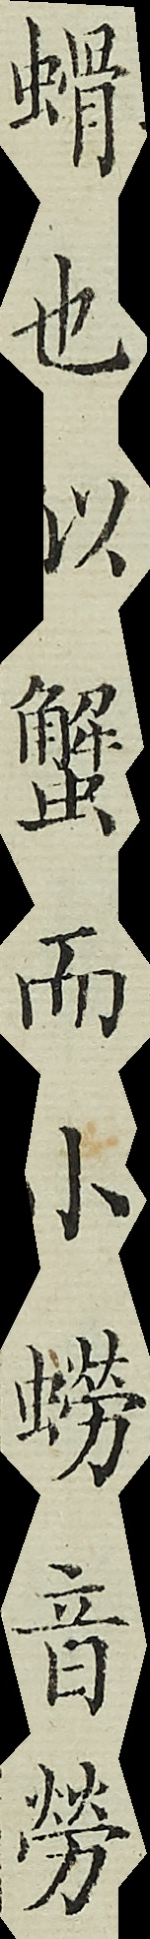螖也似蟹而小蟧音勞
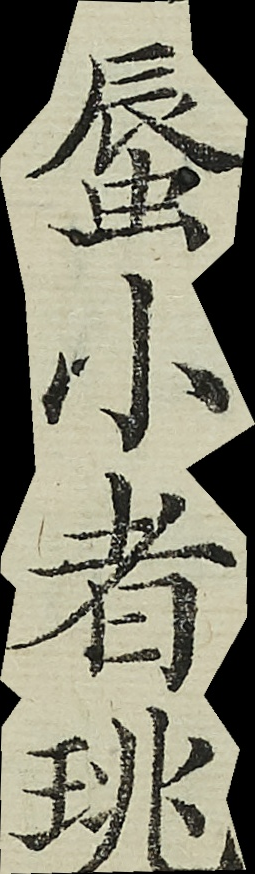蜃小者珧
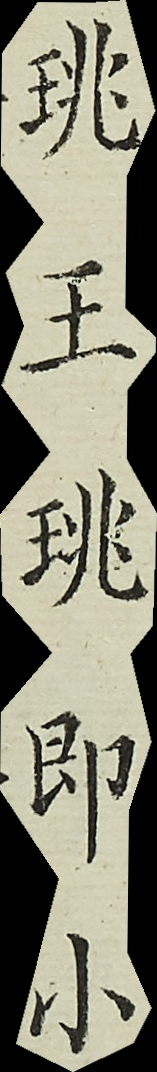珧玉珧即小
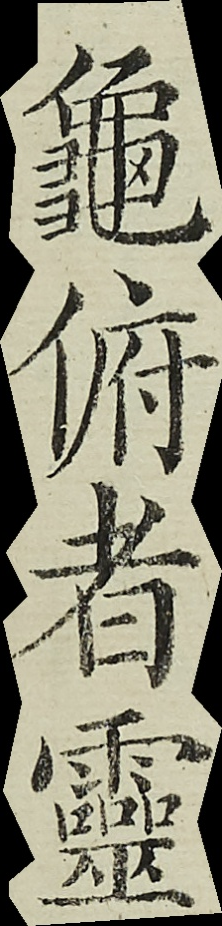龜俯者靈
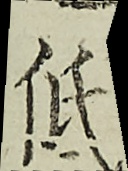低
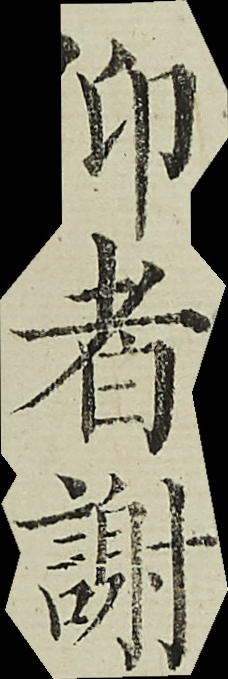仰者謝
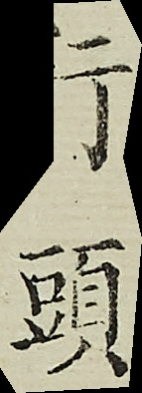行頭
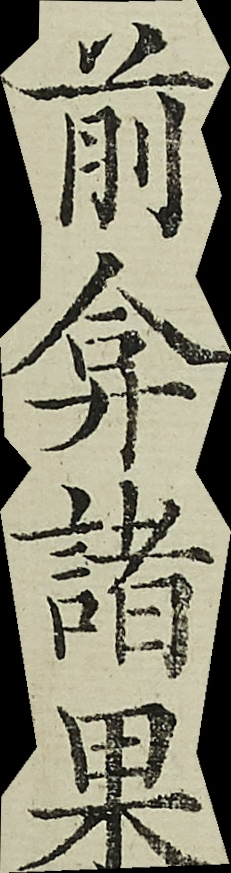前弇諸果
